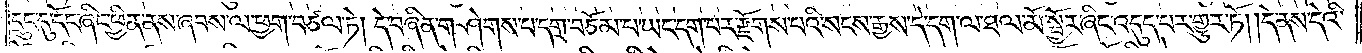དྲུང་དུ་དོང་ཞིང་ཕྱིན་ནས་ཞབས་ལ་ཕྱག་བཙལ་ཏེ། དེ་བཞིན་གཤེགས་པ་དགྲ་བཅོམ་པ་ཡང་དག་པར་རྫོགས་པའི་སངས་རྒྱས་དེ་དག་ལ་ཐལ་མོ་སྦྱོར་ཞིང་འདུད་པར་གྱུར་ཏོ། །དེ་ནས་དེའི་
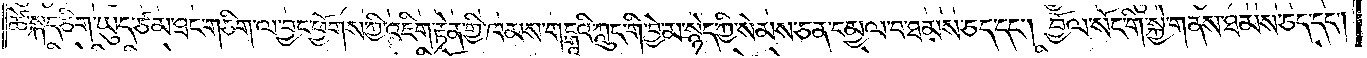ཚེ་སྐད་ཅིག་ཡུད་ཙམ་ཐང་གཅིག་ལ་བྱང་ཕྱོགས་ཀྱི་འཇིག་རྟེན་གྱི་ཁམས་གངྒཱའི་ཀླུང་གི་བྱེ་མ་སྙེད་ཀྱི་སེམས་ཅན་དམྱལ་བ་ཐམས་ཅད་དང༌། བྱོལ་སོང་གི་སྐྱེ་གནས་ཐམས་ཅད་དང༌།
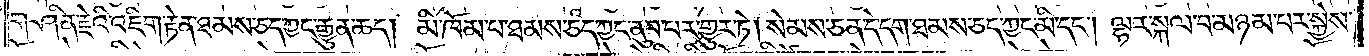གཤིན་རྗེའི་འཇིག་རྟེན་ཐམས་ཅད་ཀྱང་རྒྱུན་ཆད། མི་ཁོམ་པ་ཐམས་ཅད་ཀྱང་ནུབ་པར་གྱུར་ཏེ། སེམས་ཅན་དེ་དག་ཐམས་ཅད་ཀྱང་མི་དང༌། ལྷར་སྐལ་བ་མཉམ་པར་སྐྱེས་
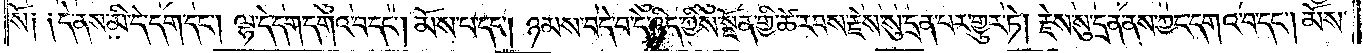སོ༑ ༑དེ་ནས་མི་དེ་དག་དང༌། ལྷ་དེ་དག་དགའ་བ་དང༌། མོས་པ་དང༌། ཉམས་བདེ་བ་དེ་ཉིད་ཀྱིས་སྔོན་གྱི་ཚེ་རབས་རྗེས་སུ་དྲན་པར་གྱུར་ཏེ། རྗེས་སུ་དྲན་ནས་ཀྱང་དགའ་བ་དང༌། མོས་
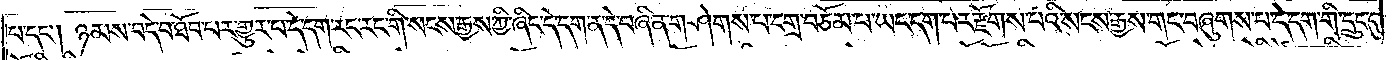པ་དང༌། ཉམས་བདེ་བ་ཐོབ་པར་གྱུར་པ་དེ་དག་རང་རང་གི་སངས་རྒྱས་ཀྱི་ཞིང་དེ་དག་ན་དེ་བཞིན་གཤེགས་པ་དགྲ་བཅོམ་པ་ཡང་དག་པར་རྫོགས་པའི་སངས་རྒྱས་གང་བཞུགས་པ་དེ་དག་གི་དྲུང་དུ་
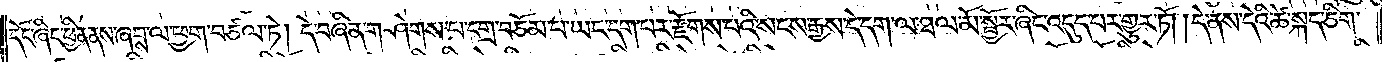དོང་ཞིང་ཕྱིན་ནས་ཞབས་ལ་ཕྱག་བཙལ་ཏེ། དེ་བཞིན་གཤེགས་པ་དགྲ་བཅོམ་པ་ཡང་དག་པར་རྫོགས་པའི་སངས་རྒྱས་དེ་དག་ལ་ཐལ་མོ་སྦྱོར་ཞིང་འདུད་པར་གྱུར་ཏོ། །དེ་ནས་དེའི་ཚེ་སྐད་ཅིག་
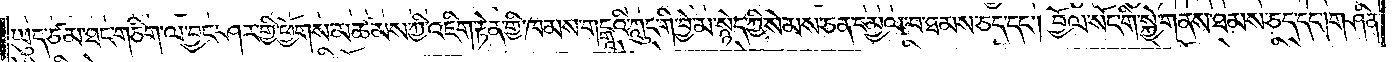ཡུད་ཙམ་ཐང་གཅིག་ལ་བྱང་ཤར་གྱི་ཕྱོགས་མཚམས་ཀྱི་འཇིག་རྟེན་གྱི་ཁམས་གངྒཱའི་ཀླུང་གི་བྱེ་མ་སྙེད་ཀྱི་སེམས་ཅན་དམྱལ་བ་ཐམས་ཅད་དང༌། བྱོལ་སོང་གི་སྐྱེ་གནས་ཐམས་ཅད་དང༌། གཤིན་
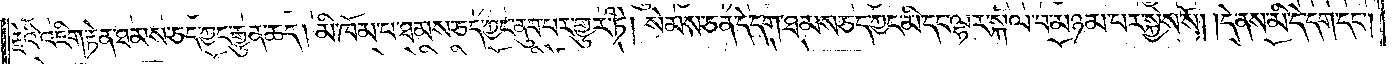རྗེའི་འཇིག་རྟེན་ཐམས་ཅད་ཀྱང་རྒྱུན་ཆད། མི་ཁོམ་པ་ཐམས་ཅད་ཀྱང་ནུབ་པར་གྱུར་ཏེ། སེམས་ཅན་དེ་དག་ཐམས་ཅད་ཀྱང་མི་དང་ལྷར་སྐལ་བ་མཉམ་པར་སྐྱེས་སོ། །དེ་ནས་མི་དེ་དག་དང༌།
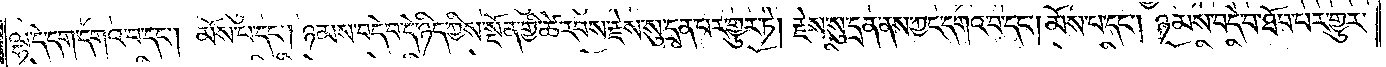ལྷ་དེ་དག་དགའ་བ་དང༌། མོས་པ་དང༌། ཉམས་བདེ་བ་དེ་ཉིད་ཀྱིས་སྔོན་གྱི་ཚེ་རབས་རྗེས་སུ་དྲན་པར་གྱུར་ཏེ། རྗེས་སུ་དྲན་ནས་ཀྱང་དགའ་བ་དང༌། མོས་པ་དང༌། ཉམས་བདེ་བ་ཐོབ་པར་གྱུར་
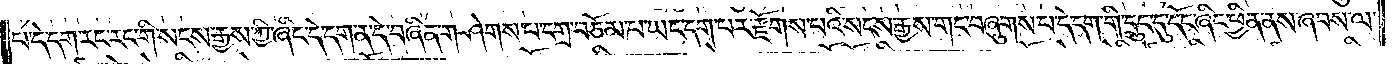པ་དེ་དག་རང་རང་གི་སངས་རྒྱས་ཀྱི་ཞིང་དེ་དག་ན་དེ་བཞིན་གཤེགས་པ་དགྲ་བཅོམ་པ་ཡང་དག་པར་རྫོགས་པའི་སངས་རྒྱས་གང་བཞུགས་པ་དེ་དག་གི་དྲུང་དུ་དོང་ཞིང་ཕྱིན་ནས་ཞབས་ལ་
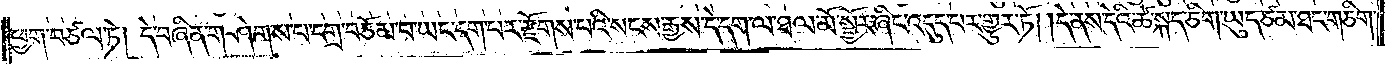ཕྱག་བཙལ་ཏེ། དེ་བཞིན་གཤེགས་པ་དགྲ་བཅོམ་པ་ཡང་དག་པར་རྫོགས་པའི་སངས་རྒྱས་དེ་དག་ལ་ཐལ་མོ་སྦྱོར་ཞིང་འདུད་པར་གྱུར་ཏོ། །དེ་ནས་དེའི་ཚེ་སྐད་ཅིག་ཡུད་ཙམ་ཐང་གཅིག་
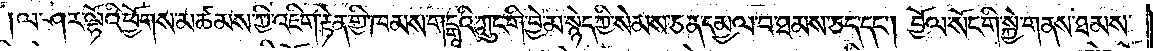ལ་ཤར་ལྷོའི་ཕྱོགས་མཚམས་ཀྱི་འཇིག་རྟེན་གྱི་ཁམས་གངྒཱའི་ཀླུང་གི་བྱེ་མ་སྙེད་ཀྱི་སེམས་ཅན་དམྱལ་བ་ཐམས་ཅད་དང༌། བྱོལ་སོང་གི་སྐྱེ་གནས་ཐམས་
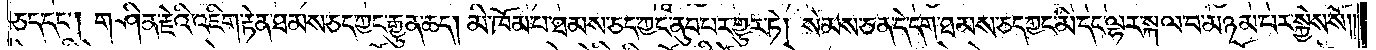ཅད་དང༌། གཤིན་རྗེའི་འཇིག་རྟེན་ཐམས་ཅད་ཀྱང་རྒྱུན་ཆད། མི་ཁོམ་པ་ཐམས་ཅད་ཀྱང་ནུབ་པར་གྱུར་ཏེ། སེམས་ཅན་དེ་དག་ཐམས་ཅད་ཀྱང་མི་དང་ལྷར་སྐལ་བ་མཉམ་པར་སྐྱེས་སོ༎
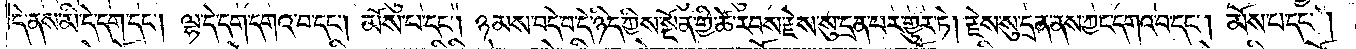དེ་ནས་མི་དེ་དག་དང༌། ལྷ་དེ་དག་དགའ་བ་དང༌། མོས་པ་དང༌། ཉམས་བདེ་བ་དེ་ཉིད་ཀྱིས་སྔོན་གྱི་ཚེ་རབས་རྗེས་སུ་དྲན་པར་གྱུར་ཏེ། རྗེས་སུ་དྲན་ནས་ཀྱང་དགའ་བ་དང༌། མོས་པ་དང༌།
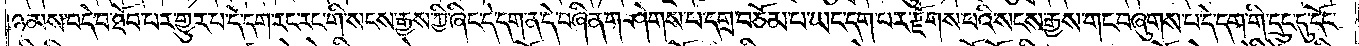ཉམས་བདེ་བ་ཐོབ་པར་གྱུར་པ་དེ་དག་རང་རང་གི་སངས་རྒྱས་ཀྱི་ཞིང་དེ་དག་ན་དེ་བཞིན་གཤེགས་པ་དགྲ་བཅོམ་པ་ཡང་དག་པར་རྫོགས་པའི་སངས་རྒྱས་གང་བཞུགས་པ་དེ་དག་གི་དྲུང་དུ་དོང་
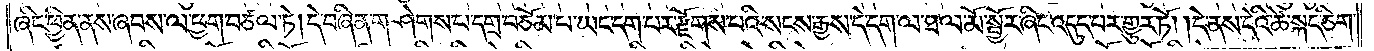ཞིང་ཕྱིན་ནས་ཞབས་ལ་ཕྱག་བཙལ་ཏེ། དེ་བཞིན་གཤེགས་པ་དགྲ་བཅོམ་པ་ཡང་དག་པར་རྫོགས་པའི་སངས་རྒྱས་དེ་དག་ལ་ཐལ་མོ་སྦྱོར་ཞིང་འདུད་པར་གྱུར་ཏོ། །དེ་ནས་དེའི་ཚེ་སྐད་ཅིག་
